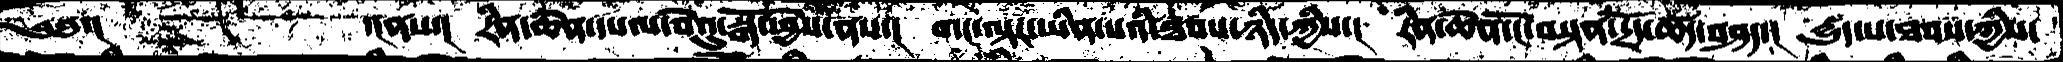༄༅་།          ་།ནས་།  རིན་ཆེན་དཔལ་བེའུ་སྒོ་ཕྱེས་ནས་།  གང་ལྟར་ཡིན་པའི་ཐབས་ཉིད་ཀྱིས་།  རིན་ཆེན་ངོ་བསྟན་དྲོད་ཚད་བཤད་།  དྱུད་པ་ཐབས་ཀྱིས་
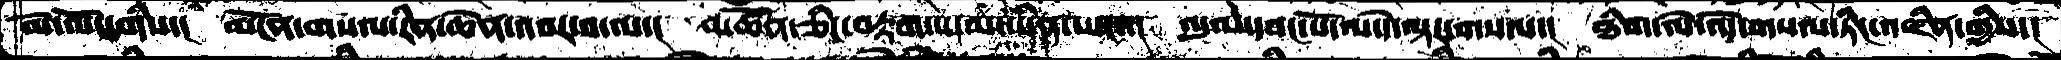མེ་ལོང་གིས་།  མངོན་གསལ་རིན་ཆེན་འབར་བ་ལ་།  མཚོན་ཅིང་བརྟག་པ་མ་ཡིན་ཡང་་།  འདུལ་དབང་པོ་ལ་དེ་ལྟར་གསལ་།  ཐིག་ལེ་འོད་གསལ་ཏིང་འཛིན་གྱིས་།
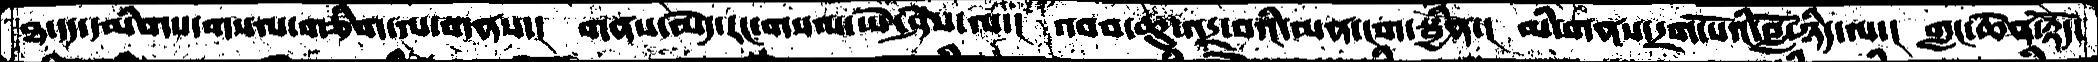ཐ་དད་དམིགས་གསལ་གཅིག་ལ་གནས་།  གནས་མེད་རང་གསལ་ཡེ་ཤེས་ལ་།  འབབ་ཆུ་འདྲ་བའི་མན་ངག་སྦྱིན་།  མི་གནས་དྲག་པོའི་བློ་ཉིད་ལ་།  གླང་ཆེན་རྟོད་
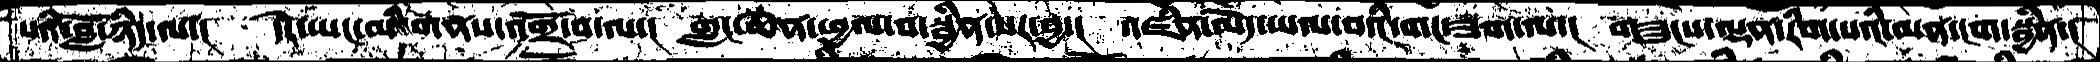པའི་བློ་ཉིད་ལ་།   དེར་ཡང་མི་གནས་འགྲོ་བ་ལ་།  གླང་ཆེན་ཕྱལ་བ་སྦྱིན་པར་བྱ་།  འཛིན་མེད་ཡལ་བའི་གང་ཟག་ལ་།  གཟུངས་ལྡན་རིག་པའི་མན་ངག་སྦྱིན་།
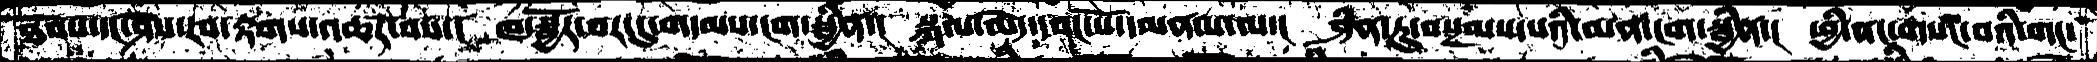ཐབས་དང་ཤེས་རབ་རྟགས་འཆར་བས་།   ཁ་སྦྱོར་བར་དུ་གདམས་ངག་སྦྱིན་།  སྐལ་མེད་དབང་པོ་དམན་པ་ལ་།  ཤིན་ཏུ་བསྔམས་པའི་མན་ངག་སྦྱིན་།  ཕྱི་ནང་གསང་བའི་གང་
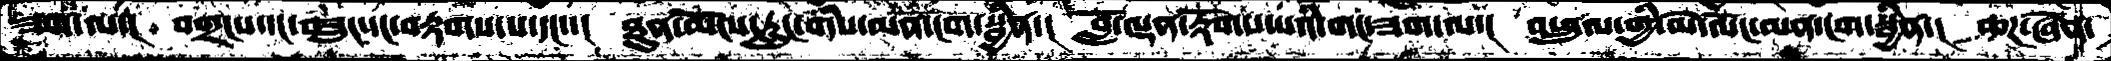ཟག་ལ་།   བགྲངས་དང་གཟུང་དང་བརྟགས་པ་དང་་།  ཐུན་མོངས་རླུང་གིས་མན་ངག་སྦྱིན་།  བློ་ལྡན་རྟོགས་པའི་གང་ཟག་ལ་།  འཕྲུལ་གྱི་མེ་ལོང་མན་ངག་སྦྱིན་།  ཆཌ་ཞེན་
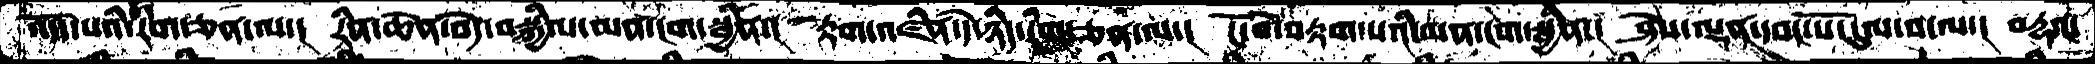འདོད་པའི་རིག་ཅན་ལ་།  རིན་ཆེན་བདེ་བསྐྱིལ་མན་ངག་སྦྱིན་།  རྟག་འཛིན་དེ་ཉིད་རིག་ཅན་ལ་།  ངོ་བོ་བརྟག་པའི་མན་ངག་སྦྱིན་།  ཤེས་ལྡན་དབང་པོ་དུལ་བ་ལ་།  བརྡའ་
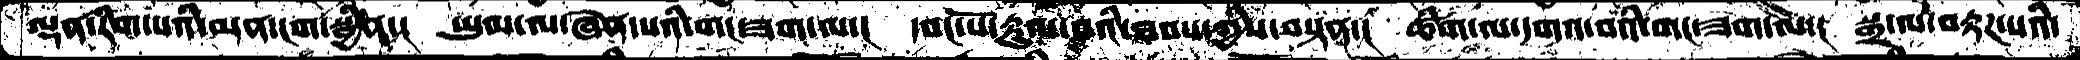ལྡན་རིག་པའི་མན་ངག་སྦྱིན་།  ཡུལ་ལ་ཞེན་པའི་གང་ཟག་ལ་།  དབང་པོ་རྟུལ་བའི་ཐབས་ཀྱིས་བསྟན་།  ཚིག་ལ་དགའ་བའི་གང་ཟག་ལ་།  སྒྲ་ལ་བརྟཌ་པའི་
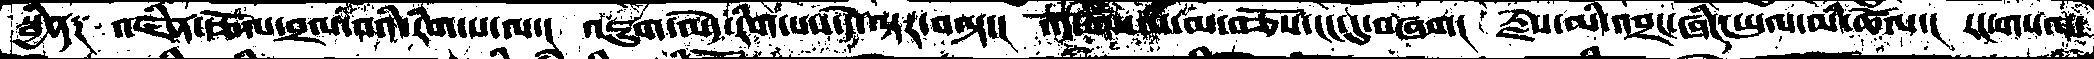སྦྱིན༑  འཛིན་དཅོལ་བྲལ་བའི་རིག་པ་ལ་།  འཇུག་མེད་རིག་པས་དེ་ལྟར་བལྟ་།  འོད་གསལ་མ་བཅོས་ངང་དུ་བཞག།  རྗེས་མིི་འབྲང་ཞིང་ཡུལ་མི་ཚོལ་།  རང་གསལ་
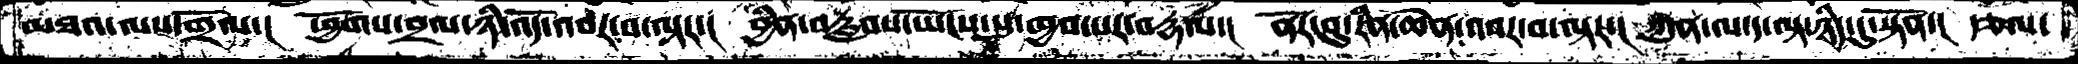མཐའ་ལས་གྲོལ་།  ཕྱོགས་བྲལ་ཉི་འོད་འབར་བ་ལྟར་།  བྱིན་བརླབས་ཡོངས་སུ་ཁྱབ་པར་བརྡལ་།  ནོར་བུ་རིན་ཆེན་འབར་བ་ལྟར་།  ཀུན་ལ་ད་ལྟ་ཉིད་དུ་སྟོན་།  རྩལ་
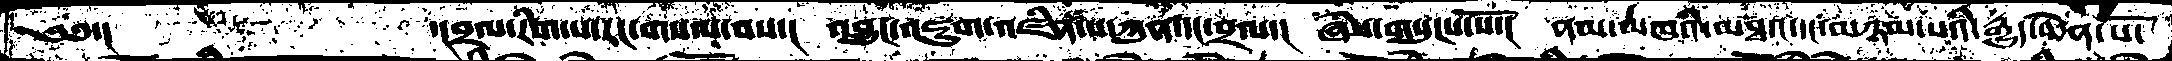༄༅་།             ་།བྲལ་རིག་པ་རང་གསལ་བས་།  འབྱུང་འཇུག་འཛིན་པ་ཀུན་དང་བྲལ་།   ཞེས་གསུངས་སོ་།   ནམ་མཁའིམཐའ་དང་མཉམ་པའི་རྒྱུད་ཆེན་པོ་
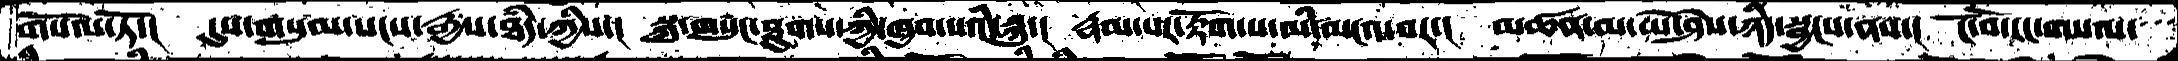གསོལ་ཏོ་།  དུས་གསུམ་སངས་རྒྱས་ཐཾད་ཀྱིས་།  སྐུ་གསུང་ཐུགས་ཀྱི་ཁྱབ་པའི་སྐུ་།  རྣམ་པར་རྟོག་པ་མི་མངའ་བར་།  མཚན་མ་ཡེ་ཤེས་ཉིད་སྦྱངས་ནས་།  ངོ་བོ་ངང་གསལ་
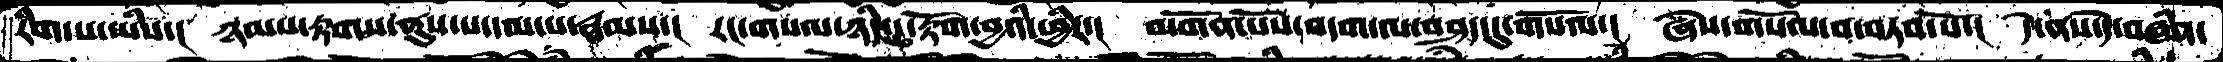རིག་པ་ཡིས་།  ཉམས་རྟགས་ནུས་པ་དམ་པ་རྣམས་།  རང་གསལ་ཉིད་དུ་རྟོག་བྱའི་ཕྱིར་།   མགོན་པོས་བདག་ལ་བཤད་དུ་གསོལ་།  ཞེས་གསོལ་བ་བཏབ་པོ་།  དེ་ནས་དེ་བཞིན་
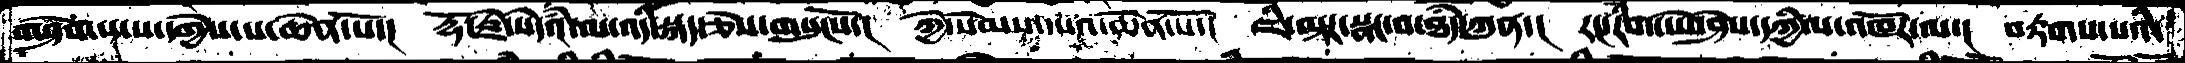གཤེགས་པ་དགྱེས་པ་ཆེན་པོ་།  རྡོ་རྗེ་སེདཾའ་ལ་འདི་སྐད་ཅེས་གསུངསོ་།  ཀྱེ་སེམས་དཔའ་ཆེན་པོ་།  ཇི་ལྟར་སྣང་བ་ཐཾད་ཀུན་།  རང་རིག་ཡེ་ཤེས་དཀྱིལ་འཁོར་ལ་།  བརྟགས་པའི་
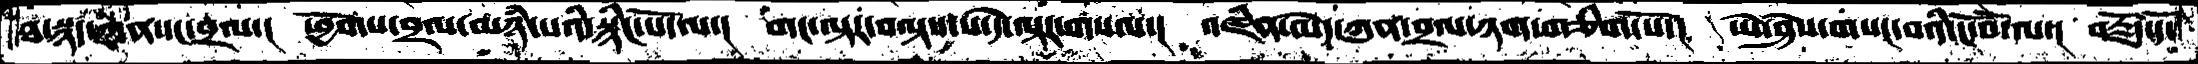ཐ་སྙད་གནས་ང་བྲལ་།  ཕྱོགས་བྲལ་མཉཾ་པའི་སྙིང་པོ་ལ་།  གང་ལྟར་བལྟས་པ་དེ་ལྟར་གསལ་།  འཛིན་མེད་ཀུན་བྲལ་ཉག་གཅིག་པོ་།  ཡེ་ཤེས་གསང་བའི་ངོ་བོ་ལ་།  བརྗོད་དངོ
